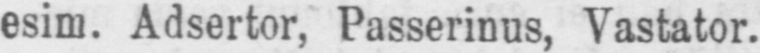esim. Passerinus, Vastator.
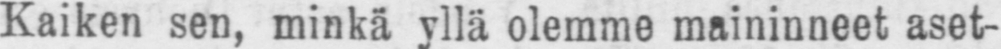Kaiken sen, minkä yllä olemme maininneet aset-
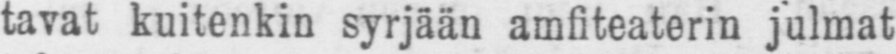tavat kuitenkin syrjään amfiteaterin julmat
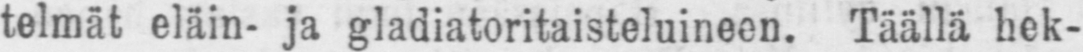telmät eläin- ja gladiatoritaisteluineen. Täällä hek-
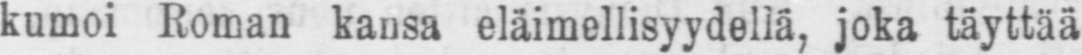kumoi Roman kansa joka täyttää
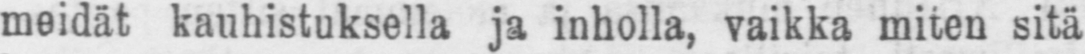meidät kauhistuksella ja inholla, vaikka miten sitä
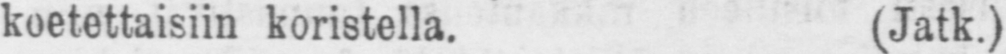koetettaisiin koristella. (Jatk.)
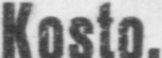Kosto.
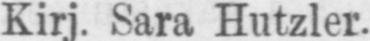Kirj. Sara, Hutzler.
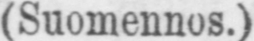(Suomennos.)
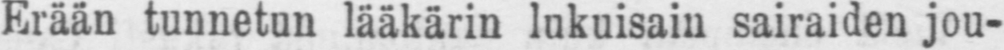Erään tunnetun lääkärin lukuisain sairaiden jou-
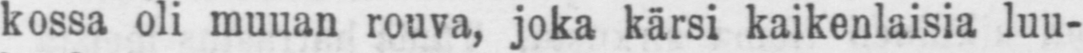kossa oli muuan rouva, joka kärsi kaikenlaisia luu-
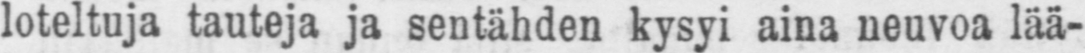loteltuja tauteja ja sentähden kysyi aina neuvoa lää-
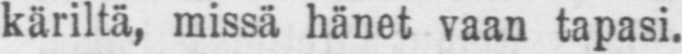käriltä, missä hänet vaan tapasi.
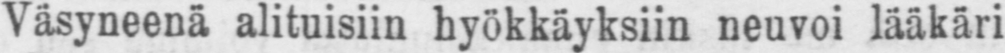Väsyneenä alituisiin hyökkäyksiin neuvoi lääkäri
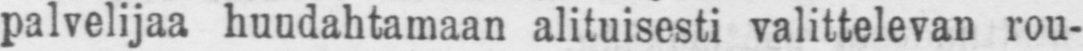palvelijaa huudahtamaan alituisesti valittelevan rou-
